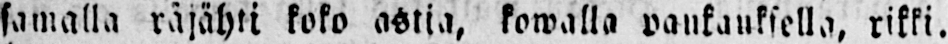samalla räjähti koko astia, kowalla paukauksella, rikki.
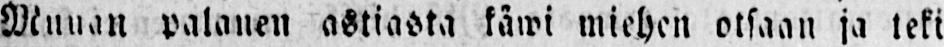Muuan palanen astiasta käwi miehen otsaan ja teki
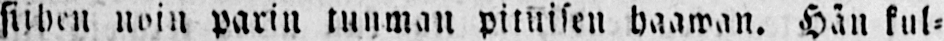siihen noin parin tuuman pituisen haawan. Hän kul-
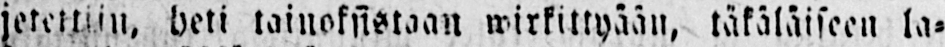jetettiin. heti tainoksistaan wirkittyään, täkäläiseen la-
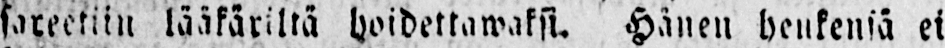sareetiin lääkäriltä hoidettawaksi. Hänen heukensä ei
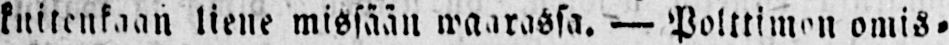kuitenkaan liene missään waarassa. — Polttimon omis-
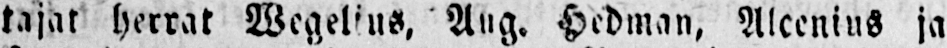tajat herrat Wegelius, Aug. Hedman, Alcenius ja
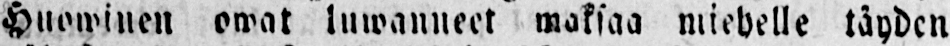Huowinen owat luwanueet maksaa miehelle täyden
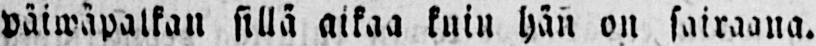päiwäpalkan sillä aikaa kuin hän on sairaana.
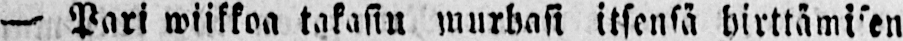— Pari wiikkoa takasin murhasi itsensä hirttämisen
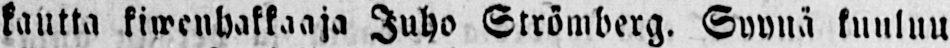kautta kiwenhakkaaja Juho Strömberg. Syynä kuuluu
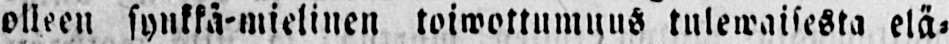olleen synkkä-mielinen toiwottumuus tulewaisesta elä-
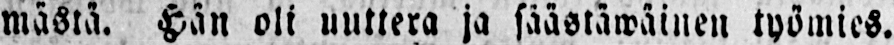mästä. Hän oli uuttera ja säästäwäinen työmies.
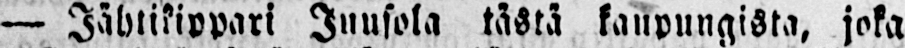— Jählikippari Juusola tästä kaupungista, joka
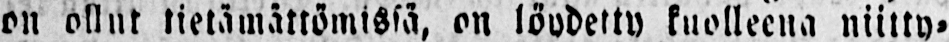on ollut tietämättömissä, on löydetty kuolleena niitty-
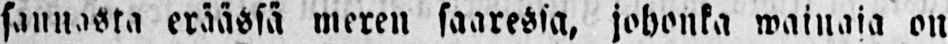sannasta eräässä meren saaressa, johonka wainaja on
